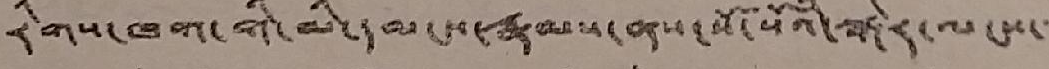རིགས་ཁག་གི་མི་དམངས་རྣམས་ནས་སོ་སོའི་སྒེར་ལངས་་་
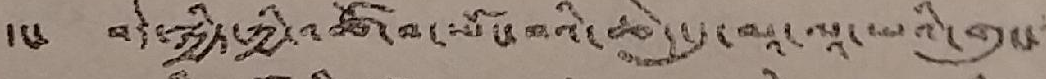དང་ བདེ་སྐྱིད་ཀྱི་འཚོ་བ་ཡོང་བའི་ཆེད་དུ་མཱ་ལཱ་ཡའི་གུང་
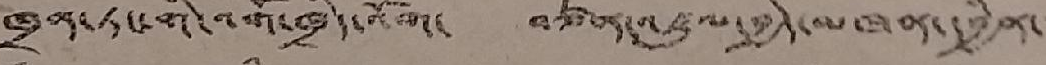ཁྲན་ཏང་གི་འགོ་ཁྲིད་འོག་ བཙན་འཛུལ་བྱེད་མཁན་དབྱིན་
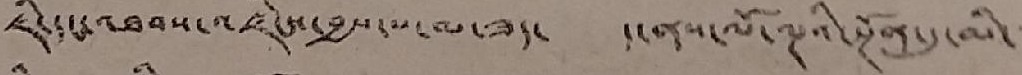ཇི་དང་འཐབས་འཛིངས་བྱས་པ་མ་ཟད་ ད་ནས་ལོ་ལྔའི་སྔོནན་དུ་མི་་་་་
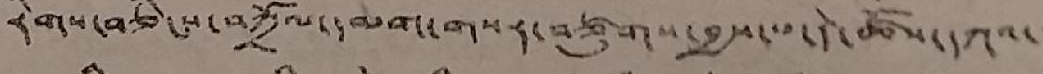རིགས་བཅིངས་བཀྲོལ་དམག་གསར་བཙུགས་བྱས་པ་དེ་ཚོས་དཀའ་་་
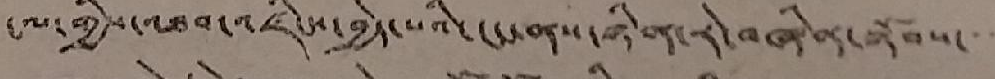ངལ་གྱིས་འཐབ་འཛིངས་བྱེད་པའི་ངང་ནས་ཉིན་རེ་བཞིན་སྟོབས་་་་་་་
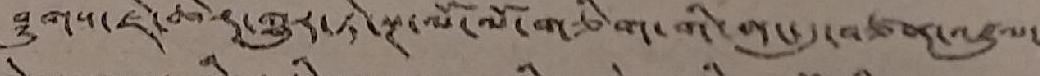ཤུགས་ཇེ་ཆེར་གྱུར་ཏེ་སྔ་ལོ་ལོ་གཅིག་གི་ནང་དུ་བཙན་འཛུལ་
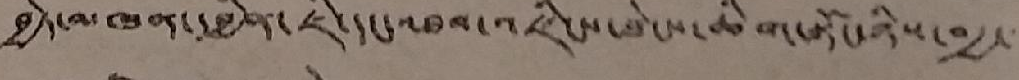བྱེད་མཁན་དབྱིན་ཇི་དང་འཐབ་འཛིངས་ཐེངས་ཆིག་སྟོང་ཉིས་བརྒྱ་་་་་
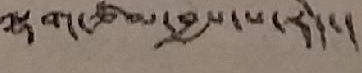ལྷག་ཙམ་བྱས་པ་རེད་།
